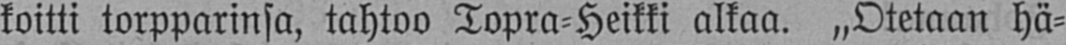koitti torpparinsa, tahtoo Topra-Heikki alkaa. „Otetaan hä-
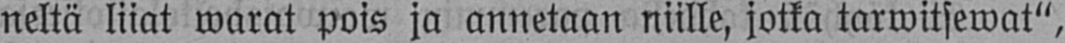neltä liiat warat pois ja annetaan niille, jotka tarwitsewat",
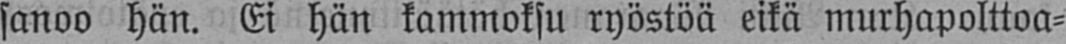sanoo hän. Ei hän kammoksu ryöstöä eikä murhapolttoa-
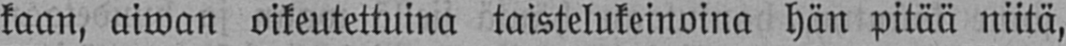kaan, aiwan oikeutettuina taistelukeinoina hän pitää niitä,
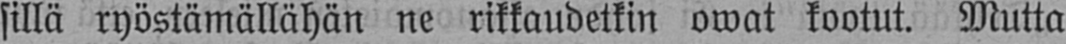sillä ryöstämällähän ne rikkaudetkin owat kootut. Mutta
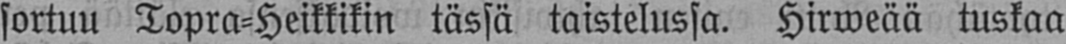sortuu Topra-Heikkikin tässä taistelussa. Hirweää tuskaa
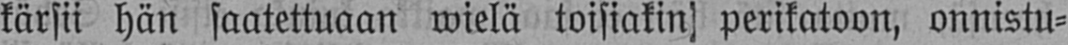kärsii hän saatettuaan wielä toisiakin perikatoon, onnistu-
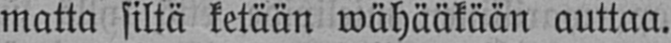matta siltä ketään wähääkään auttaa.
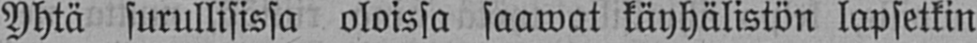Yhtä surullisissa oloissa saawat köyhälistön lapsetkin
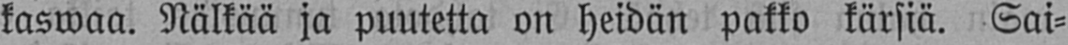kaswaa. Nälkää ja puutetta on heidän pakko kärsiä. Sai-
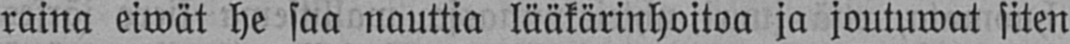raina eiwät he saa nauttia lääkärinhoitoa ja joutuwat siten
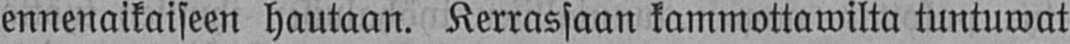ennenaikaiseen hautaan. Kerrassaan kammottawilta tuntuwat
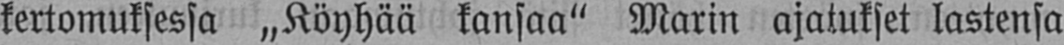kertomuksessa „Köyhää kansaa" Marin ajatukset lastensa
